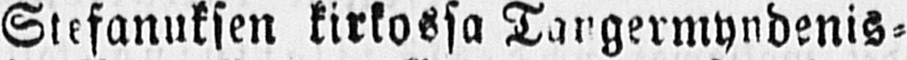Stefanuksen kirkossa Tangermyndenis-
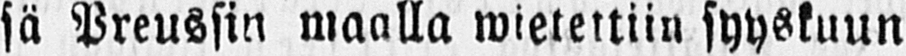sä Preussin maalla wietettiin syyskuun
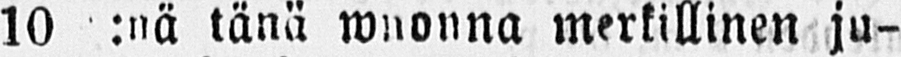10 p:nä tänä wnonna merkillinen ju-
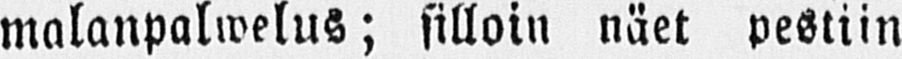malanpalwelus; silloin näet pestiin
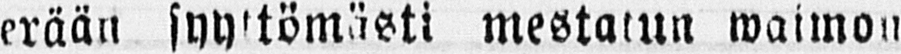erään syyttömästi mestatun waimon
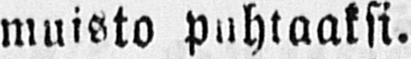muisto puhtaaksi.
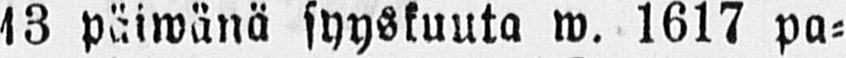13 päiwänä syyskuuta w. 1617 pa-
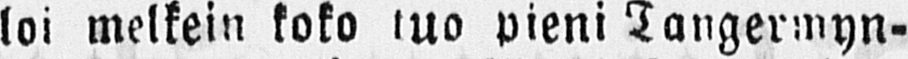loi meilkein koko tuo pieni Tangermyn-
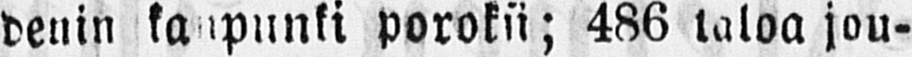denin kanpunki poroksi; 486 taloa jou-
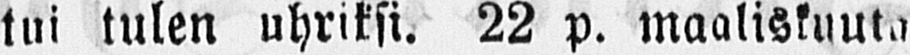tui tulen uhriksi. 22 p. maaliskuuta
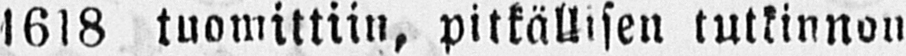1618 tuomittiin, pitkällisen tutkinnon
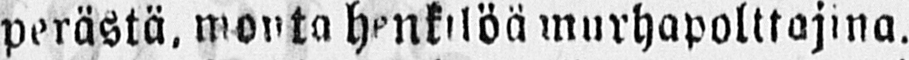perästä, monta henkilöä murhapolttajina.
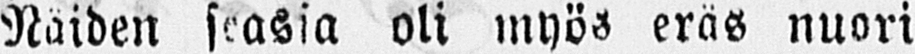Naiden seassa oli myös eräs nuori
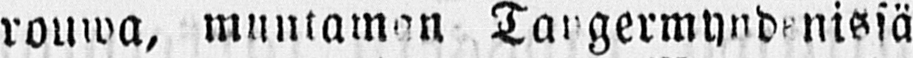rouwa, muntaman Tangermyndenissä
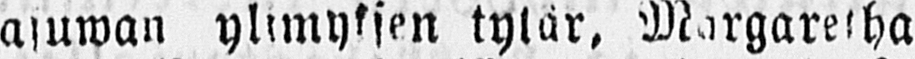asuwan ylimyksen tytär. Margaretha
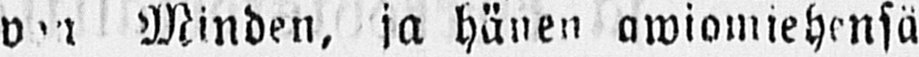von Minden, ja hänen awiomiehensä
